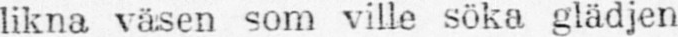likna väsen som ville söka glädjen
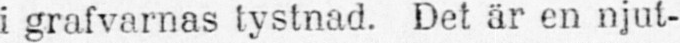i grafvarnas tystnad. Det är en njut-
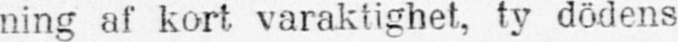ning af kort varaktighet, ty dödens
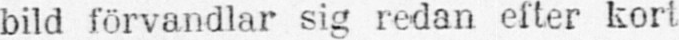bild förvandlar sig redan efter kort
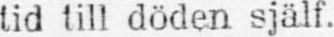tid till döden själf.
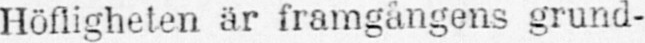Höfligheten är framgångens grund-
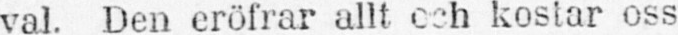val. Den eröfrar allt och kostar oss
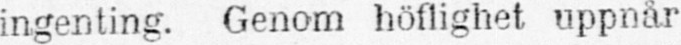ingenting. Genom höflighet uppnår
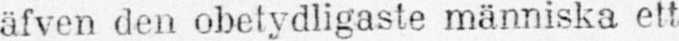äfven den obetydligaste människa ett
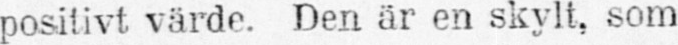positivt värde. Den är en skylt, som
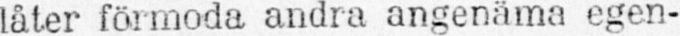låter förmoda andra angenäma egen-
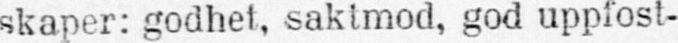skaper: godhet, saktmod, god uppfost-
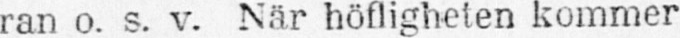ran o. s. v. När höfligheten kommer
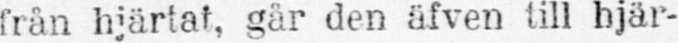från hjärtat, går den äfven till hjär-
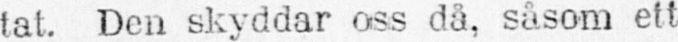tat. Den skyddar oss då, såsom ett
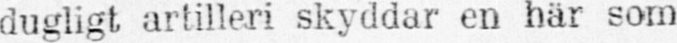dugligt artilleri skyddar en här som
